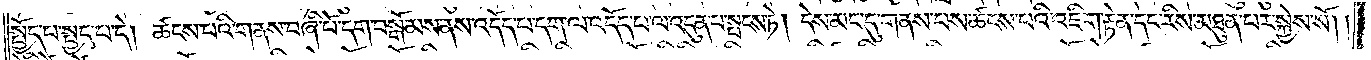སྤྱོད་པ་སྤྱད་པ་དེ། ཚངས་པའི་གནས་བཞི་པོ་དག་བསྒོམས་ནས་འདོད་པ་དག་ལ་འདོད་པ་ལ་འདུན་པ་སྤངས་ཏེ། དེས་མང་དུ་གནས་པས་ཚངས་པའི་འཇིག་རྟེན་དང་རིས་མཐུན་པར་སྐྱེས་སོ། །
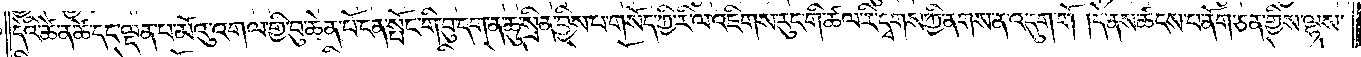དེའི་ཚེ་ན་ཚེ་དང་ལྡན་པ་མོའུ་འགལ་གྱི་བུ་ཆེན་པོ་ངན་སྤོང་གི་བུ་དག་ན་ཆུ་སྲིན་བྱིས་པ་གསོད་ཀྱི་རི་ལ་འཇིགས་རུང་གི་ཚལ་རི་དྭགས་ཀྱི་ནགས་ན་འདུག་གོ །དེ་ནས་ཚངས་པ་ནོག་ཅན་གྱིས་ལྷས་
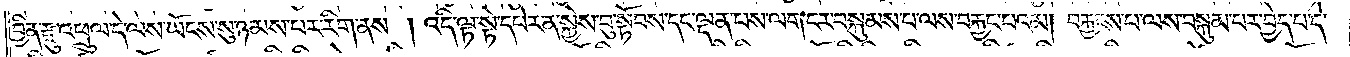བྱིན་རྫུ་འཕྲུལ་དེ་ལས་ཡོངས་སུ་ཉམས་པར་རིག་ནས། འདི་ལྟ་སྟེ་དཔེར་ན་སྐྱེས་བུ་སྟོབས་དང་ལྡན་པས་ལག་ངར་བསྐུམས་པ་ལས་བརྐྱང་པའམ། བརྐྱངས་པ་ལས་བསྐུམ་པར་བྱེད་པ་དེ་
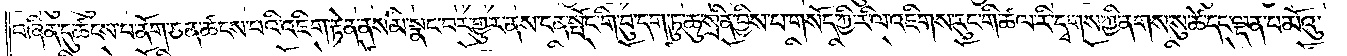བཞིན་དུ་ཚངས་པ་ནོག་ཅན་ཚངས་པའི་འཇིག་རྟེན་ནས་མི་སྣང་བར་གྱུར་ནས་ངན་སྤོང་གི་བུ་དག་ཏུ་ཆུ་སྲིན་བྱིས་པ་གསོད་ཀྱི་རི་ལ་འཇིགས་རུང་གི་ཚལ་རི་དྭགས་ཀྱི་ནགས་སུ་ཚེ་དང་ལྡན་པ་མོའུ་
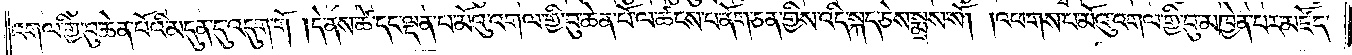འགལ་གྱི་བུ་ཆེན་པོའི་མདུན་དུ་འདུག་གོ །དེ་ནས་ཚེ་དང་ལྡན་པ་མོའུ་འགལ་གྱི་བུ་ཆེན་པོ་ལ་ཚངས་པ་ནོག་ཅན་གྱིས་འདི་སྐད་ཅེས་སྨྲས་སོ། །འཕགས་པ་མོའུ་འགལ་གྱི་བུ་མཁྱེན་པར་མཛོད་
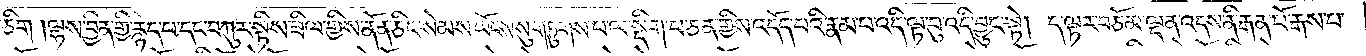ཅིག །ལྷས་བྱིན་གྱི་རྙེད་པ་དང་བཀུར་སྟིས་ཟིལ་གྱིས་ནོན་ཅིང་སེམས་ཡོངས་སུ་གཏུགས་པ་ལ་སྡིག་པ་ཅན་གྱིས་འདོད་པའི་རྣམ་པ་འདི་ལྟ་བུ་འདི་བྱུང་སྟེ། ད་ལྟར་བཅོམ་ལྡན་འདས་ནི་རྒན་པོ་རྒས་པ་
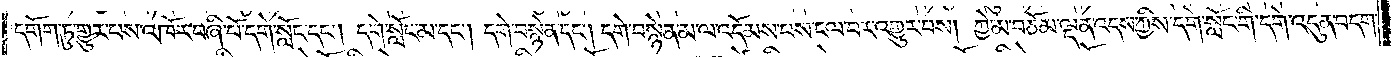དགོག་ཏུ་གྱུར་པས་འཁོར་བཞི་པོ་དགེ་སློང་དང༌། དགེ་སློང་མ་དང༌། དགེ་བསྙེན་དང༌། དགེ་བསྙེན་མ་ལ་འདོམས་པས་ངལ་བར་འགྱུར་བས། ཀྱེ་མ་བཅོམ་ལྡན་འདས་ཀྱིས་དགེ་སློང་གི་དགེ་འདུན་བདག་
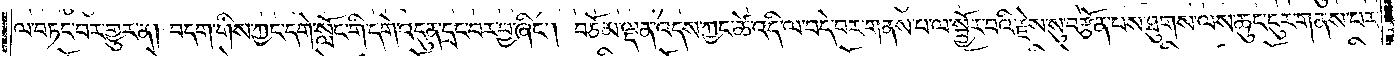ལ་བཏང་བར་གྱུར་ན། བདག་གིས་ཀྱང་དགེ་སློང་གི་དགེ་འདུན་དྲང་བར་བྱ་ཞིང༌། བཅོམ་ལྡན་འདས་ཀྱང་ཚེ་འདི་ལ་བདེ་བར་གནས་པ་ལ་སྦྱོར་བའི་རྗེས་སུ་བརྩོན་པས་ཐུགས་ལས་ཆུང་ངུར་གནས་པར་
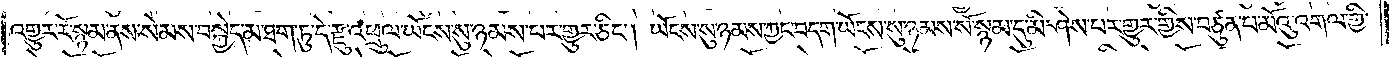འགྱུར་རོ་སྙམ་ནས་སེམས་བསྐྱེད་མ་ཐག་ཏུ་དེ་རྫུ་འཕྲུལ་ཡོངས་སུ་ཉམས་པར་གྱུར་ཅིང༌། ཡོངས་སུ་ཉམས་ཀྱང་བདག་ཡོངས་སུ་ཉམས་སོ་སྙམ་དུ་མི་ཤེས་པར་གྱུར་གྱིས་བཙུན་པ་མོའུ་འགལ་གྱི་
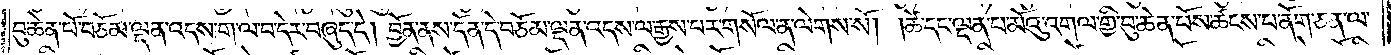བུ་ཆེན་པོ་བཅོམ་ལྡན་འདས་ག་ལ་བ་དེར་བཞུད་དེ། བྱོན་ནས་དོན་དེ་བཅོམ་ལྡན་འདས་ལ་རྒྱས་པར་གསོལ་ན་ལེགས་སོ། །ཚེ་དང་ལྡན་པ་མོའུ་འགལ་གྱི་བུ་ཆེན་པོས་ཚངས་པ་ནོག་ཅན་ལ་
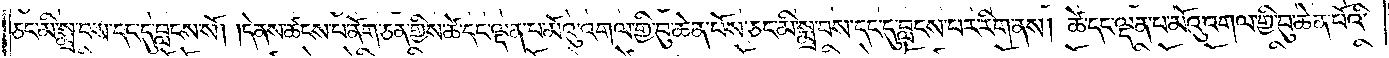ཅང་མི་སྨྲ་བས་དང་དུ་བླངས་སོ། །དེ་ནས་ཚངས་པ་ནོག་ཅན་གྱིས་ཚེ་དང་ལྡན་པ་མོའུ་འགལ་གྱི་བུ་ཆེན་པོས་ཅང་མི་སྨྲ་བས་དང་དུ་བླངས་པར་རིག་ནས། ཚེ་དང་ལྡན་པ་མོའུ་འགལ་གྱི་བུ་ཆེན་པོའི་
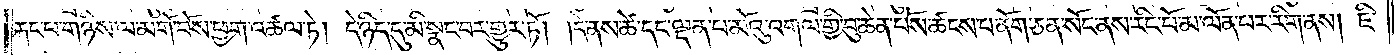རྐང་པ་གཉིས་ལ་མགོ་བོས་ཕྱག་འཚལ་ཏེ། དེ་ཉིད་དུ་མི་སྣང་བར་གྱུར་ཏོ། །དེ་ནས་ཚེ་དང་ལྡན་པ་མོའུ་འགལ་གྱི་བུ་ཆེན་པོས་ཚངས་པ་ནོག་ཅན་སོང་ནས་རིང་པོ་མ་ལོན་པར་རིག་ནས། ཇི་
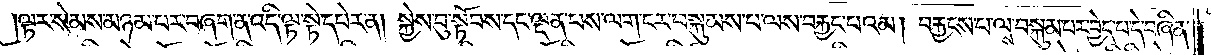ལྟར་སེམས་མཉམ་པར་བཞག་ན་འདི་ལྟ་སྟེ་དཔེར་ན། སྐྱེས་བུ་སྟོབས་དང་ལྡན་པས་ལག་ངར་བསྐུམས་པ་ལས་བརྐྱང་པའམ། བརྐྱངས་པ་ལས་བསྐུམ་པར་བྱེད་པ་དེ་བཞིན་
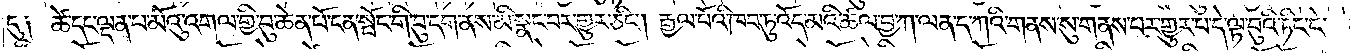དུ༑ ཚེ་དང་ལྡན་པ་མོའུ་འགལ་གྱི་བུ་ཆེན་པོ་ངན་སྤོང་གི་བུ་དག་ནས་མི་སྣང་བར་གྱུར་ཅིང༌། རྒྱལ་པོའི་ཁབ་ཏུ་འོད་མའི་ཚལ་བྱ་ཀ་ལན་ད་ཀའི་གནས་སུ་གནས་པར་གྱུར་པ་དེ་ལྟ་བུའི་ཏིང་ངེ་
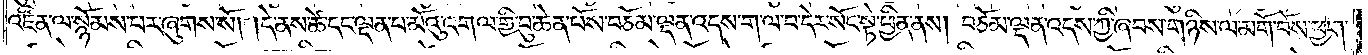འཛིན་ལ་སྙོམས་པར་ཞུགས་སོ། །དེ་ནས་ཚེ་དང་ལྡན་པ་མོའུ་འགལ་གྱི་བུ་ཆེན་པོས་བཅོམ་ལྡན་འདས་ག་ལ་བ་དེར་སོང་སྟེ་ཕྱིན་ནས། བཅོམ་ལྡན་འདས་ཀྱི་ཞབས་གཉིས་ལ་མགོ་བོས་ཕྱག་
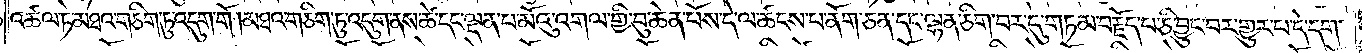འཚལ་ཏེ་མཐའ་གཅིག་ཏུ་འདུག་གོ །མཐའ་གཅིག་ཏུ་འདུག་ནས་ཚེ་དང་ལྡན་པ་མོའུ་འགལ་གྱི་བུ་ཆེན་པོས་དེ་ལ་ཚངས་པ་ནོག་ཅན་དང་ལྷན་ཅིག་པར་དུ་གཏམ་བརྗོད་པ་ཅི་བྱུང་བར་གྱུར་པ་དེ་དག་
